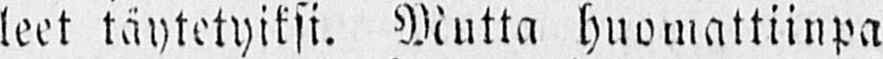leet täytetyiksi. Mutta huomattiinpa
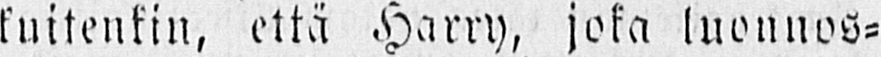kuitenkin, että Harry, joka luonnos-
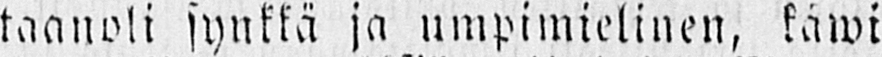taanoli synkkä ja umpimielinen, käwi
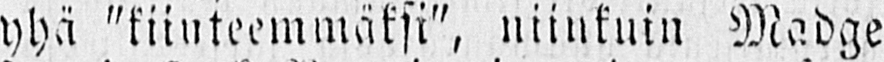yhä "kiinteemmäksi", niinkuin Madge
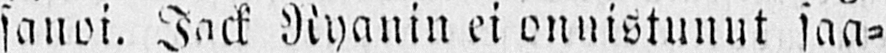sanoi. Jack Nyanin ei onnistunut saa-
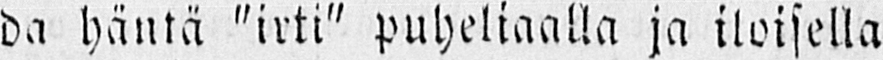da häntä "irti" puheliaalla ja iloisella
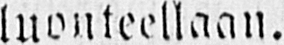luonteellaan.
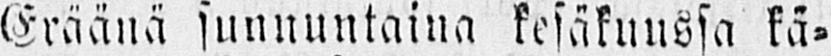Eräänä sunnuntaina kesäkuussa kä-
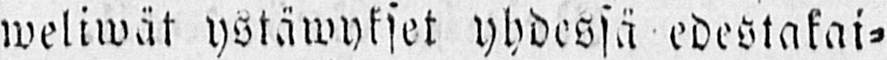weliwät ystäwykset yhdessä edestakai-
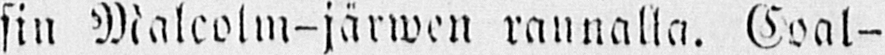sin Malcolm-järwen raunalla. Coal-
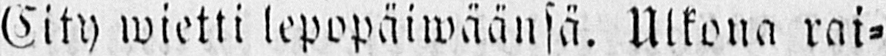Eity wietti lepopäiwäansä. Ulkona rai-
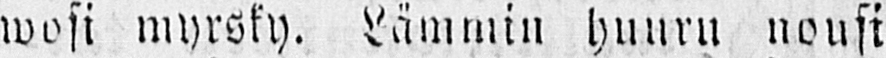wosi myrsky. Lämmin huuru nousi
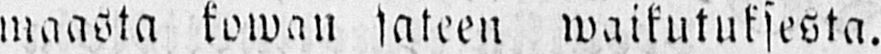maasta kowan sateen waikutuksesta.
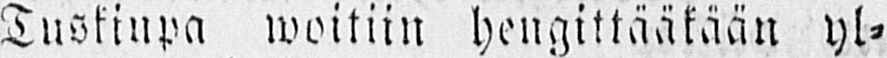Tuskinpa woitiin hengittääkään yl-
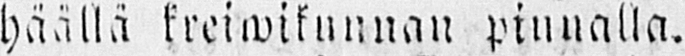häällä kreiwikunnan pinnalla.
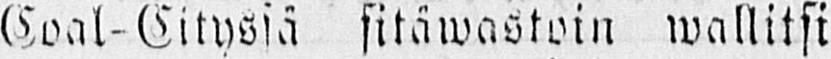Coal-Cityssä sitäwastoin wallitsi
